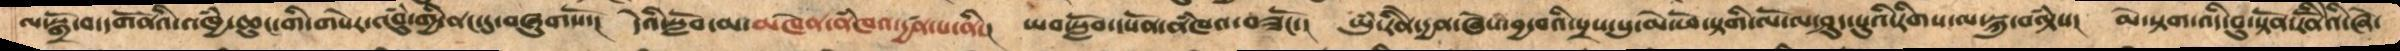ལ་སྒྲོ་བ་དགོནའི་འཁྱཾ་ཆུང་གི་གསེར་འབུཾ་གྱི་ནང་དུ་བཞུགསོ་།  དེའི་སློབ་མ་མཁེན་ནཾཁའ་དྱཚན་པ་ནི།  ཡབ་སློབདཔོན་ནཾཁའ་བཟངོ་།  ཡུཾ་རིནེ་དྱན་ཞེས་བྱ་བའི་སྲས་སུ་མེ་ཕོ་སྟགི་ལོ་ལ་ཤུད་པུའི་རིགས་ལ་སྐུ་བལྟཾས།  མེ་སྟག་འདི་བུ་སྟོན་རིནོའི་ཞེ་
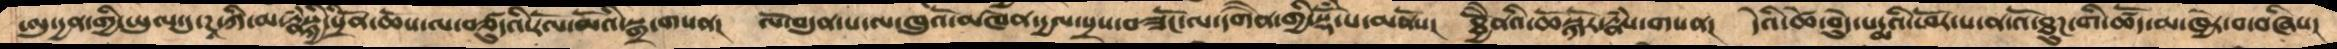ཨུ་དྱན་གྱི་ཡུལ་དུ་ཌཱ་ཀི་རྣཾསྐྱི་སྲིནོ་ཆོས་ལ་བཙུདའི་རོལ་མོའི་སྒྲ་གསན།  ལོ་བདུན་པ་ལ་ཁུའོ་མཁེན་དྱལ་སྲས་བཟོང་ལ་དགཻན་གྱི་སྡོཾ་པ་མནོས།  ཐྱོཻནའི་ཆོསྐོར་རྣཾས་གསན།  དེའི་ཚེ་བེུད་པདྨའི་ཕོར་པ་ན་འོ་ཐུཌ་གི་ཚོད་མ་ཁྱེར་བ་བཞིས།
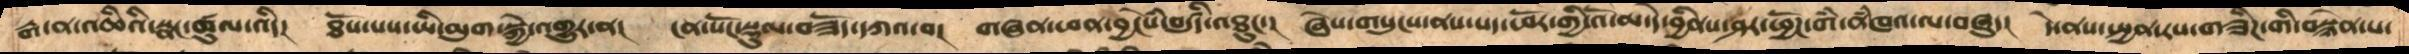རྒ་ན་འཆིའི་སྣང་ཚུལ་འདི།  ཐོས་པས་ཡི་མུག་སྐྱེ་འགྱུར་ན།  ངན་སོང་སྡུལ་བཟོད་དཀའ་བ།  གཞན་ཕན་བྱངེསཾ་བདུདརྩི་འཐུང་།  ཞེས་གསུངས་ནས་པད་ཕོར་གྱི་འོ་མ་དེ་བྱིནས་ཤར་ཕྱོཌ་གཾ་ནཾཁའ་ལ་བཞུད།   དེ་ནས་སྤྱན་རས་གཟིཌ་ཀྱིབསྙེན་པ་
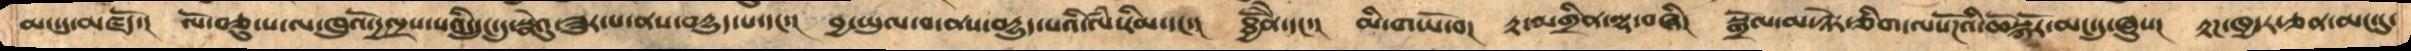མང་དུ་མཛོད།  ལོ་བཅུ་པ་ལ་ཁུའི་དྱལྲས་པའི་དྲུང་དུ་སྣེའུ་ཟུར་པ་ནས་བདྱུད་པ་དང་།  བྱ་ཡུལ་བ་ནས་བདྱུད་པའི་ལཾ་རིམ་དང་།  ཐྱེནོི་དང་།  མི་གཡོ་བ། རྟ་མགྲིན་ལྷ་བཞི།  སྒྲོལ་མ་ཉེར་ཅིག་ལསོཌའི་ཆོསྐོར་མང་དུ་ཞུས།  རྟཌ་ཁྱདར་ཅན་མང་དུ་
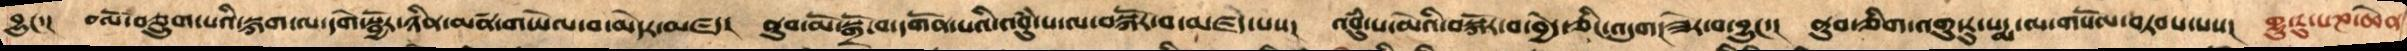བྱུང་།  བལོ་བཅྲུག་པའི་སྐག་ལ་དགེ་སྦྱོར་ཉིན་མཚན་གཡེལ་བ་མེདར་མཛད།  ནུབ་མོ་སྒྲོ་བ་དགོན་པའི་འབུཾ་པ་ལ་བསྐོར་བ་མཛད་པས།  འབུཾ་པ་མེའི་བསྐོར་བ་བྱེད་ཅིང་འདུག་ཟེར་བ་བྱུང་།  ནུབ་ཅིག་འགུ་རུ་པདྨ་ལ་གསོལ་བཏབས་པས།  གུ་རུ་པཎ་ཆེན
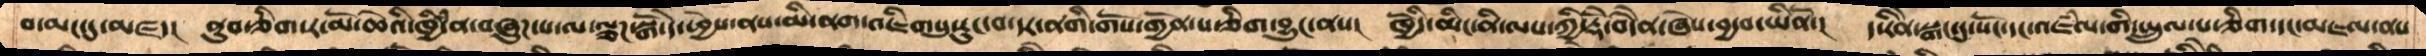བ་མང་དུ་མཛད།  ནུབ་ཅིག་ར་མོ་ཆེའི་ཁྱཾ་ན་བཞུཌ་པ་ལ་ལྕཌ་སྒོ་དེ་ཕྱེས་ནས་མི་ནག་འཇིགསུ་རུང་བ་དར་ནགི་གོས་གྱོན་པ་ཅིག་བྱུང་ནས།  ཁྱོདི་མིང་ནི་ལས་ཀྱི་རྡོེ་བདཻན་ཞེས་བྱ་བ་ཡིནོ།  ད་རིནེ་སྒང་དུ་སོང་དང་འཇཾལ་གི་སྤྲུལ་པ་ཅིག་དང་མཇལ་ནས
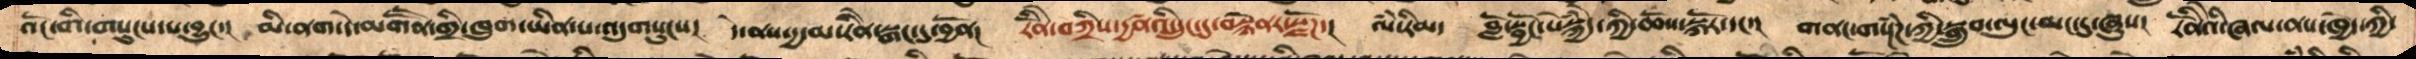འོང་གི་གསུངས་པ་བྱུང་།  མི་ནག་དེ་མགཽན་གྲི་ཁུག་ཡིན་པ་འདུགསུངས།  དེ་ནས་དྱ་མ་རིནེ་སྒང་དུ་བྱོན།  རིནོེ་བཀྲིས་དྱཚནའི་དྲུང་དུ་བསྙེནར་སྫོཌ།  ལཾ་རིམ།   བློ་སྦྱོང་སེཾསྐྱེད་ཀྱི་ཆོས་སྐོར་དང་།  གནང་གསྔཾཌ་ཀྱི་སྒྲུབ་ལུང་མང་དུ་ཞུས།   རིནོེའི་ཞལ་ནས་ཁྱེད་ཀྱི་
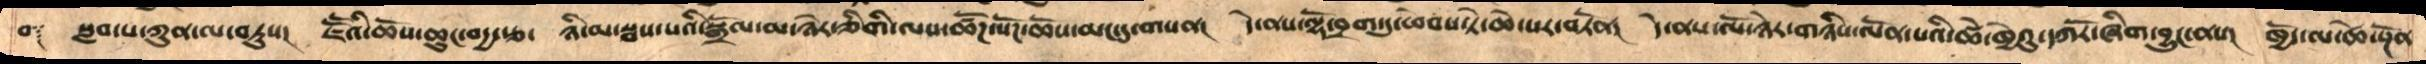བ༑   སླབ་པ་ཀུན་ལ་བཏུས།   ཇཽའི་ཆོས་ཆུང་བདྱ་རྩ་  ཉི་མ་སྦས་པའི་སྒྲོལ་མ་ཉེར་ཅིགི་ལས་ཚོཌ་སོཌ་ཆོས་མང་དུ་གསན།   དེ་ནས་ལྷོ་བྲག་དུ་ཕེབས་ཏེ་ཆེ་སར་བཏོན།  དེ་ནས་ལོ་ཉེར་གཉིས་ལོན་པའི་ཚེ་ཁྱེའུ་དཀོར་ཞིག་བྱུང་ནས།  ཁྱོད་ལ་ཚེ་སྔོན་
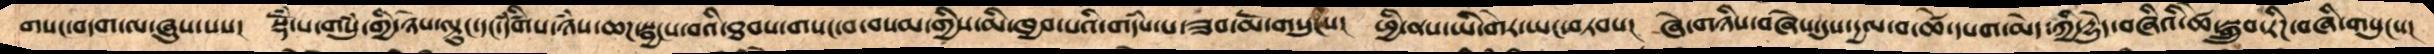གསང་བདག་ལ་ཞུས་པས།  སྡོཾ་པ་གསུཾ་གྱི་ཉེས་ལྟུང་དང་དཾཚིགས་ཉཾས་ཆཌ་སྦྱངས་བའི་ཐབས་གསང་བ་བསམ་གྱིས་མི་ཁྱབ་པའི་གདཾས་པ་ཟབ་མོ་གསུངས།   ཕྱི་ནས་ཡི་གེར་ཡང་བཏབས།  ཞེ་གཉིས་བཞེས་དུས་དྱལ་བ་ཚེ་དཔག་མེད་ཀྱི་དྱེུད་བཞིའི་ཚེ་སྒྲུབ་རིཌ་བཞི་གསུངས།
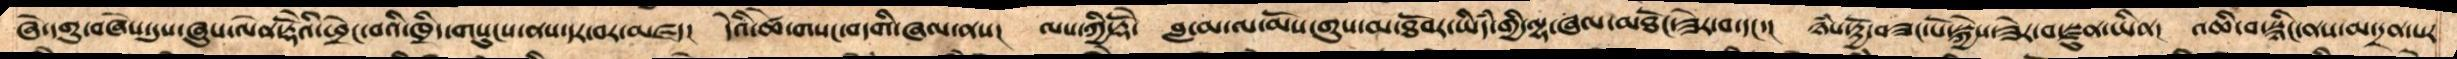ཞེ་དགུ་བཞེས་དུས་ཞུས་ལེན་རྡོའེི་ཕྲེང་བའི་ཁྲིད་གསུངས་ནས་དར་བར་མཛད།  དེའི་ཚེ་གསང་བདགི་ཞལ་ནས།  ལས་ཀྱི་རྡོ་ེ   བླ་མ་ལ་མོས་གུས་མ་ཐོབར་ཡིདཾ་གྱི་ལྷ་ཞལ་མཐོང་ཟེར་བ་དང་།  ཉཾས་རྟྱོ་བཟང་པོ་སྐྱེས་ཟེར་བ་སྫུན་ཡིན།  འཆི་བ་སྙིང་ནས་མ་དྲན་པར་
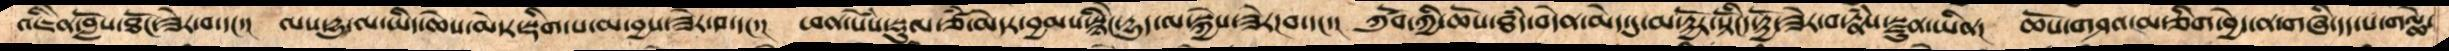འཇིནེ་བློས་ཐོང་ཟེར་བ་དང་།   ལས་དྱུ་ལ་ཡིད་ཆེས་མེདར་སྡིག་པ་མ་བྱས་ཟེར་བ་དང་།  ཕན་སེསཾ་སྡུལ་ཙཾ་མེདར་བྱམས་སྙིང་ེདྱུད་ལ་སྐྱེས་ཟེར་བ་དང་།   ཀུཛོབ་ཀྱི་ཆོས་ཐཾད་བདེན་མེད་དུ་མ་རྟྱོར་སྟོངིད་རྟྱོ་ཟེར་པ་རྣཾས་སྫུན་ཡིན།  ཆོས་གཤའ་མ་ཅིག་བྱེད་ན་གཞི་དད་པ་གལྖེ་
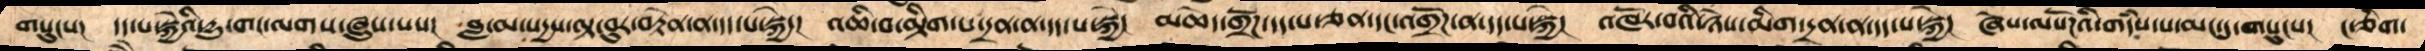གསུངས།   དད་པ་སྐྱེའི་དྱུ་གང་ལགས་ཞུས་པས།   བླ་མ་སདྱས་ལྟ་བུར་བརྟེན་ན་དད་པ་སྐྱེ།  འཆི་བ་མྟིག་པ་དྲན་ན་དད་པ་སྐྱེ།  མཆེད་གྲོཌ་དད་པ་ཅན་དང་འགྲོཌ་ན་དད་པ་སྐྱེ།  འཁོར་བའི་ཉེས་མིག་དྲན་ན་དད་པ་སྐྱེ།   ཞེས་ལསོཌའི་གདཾས་པ་མང་དུ་གསུངས།  ང་ཅིག་
